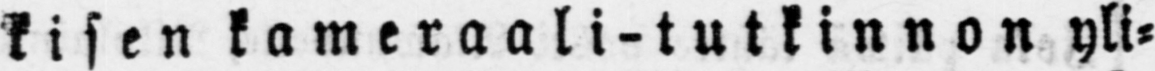kisen kameraali-tutkinnon yli-
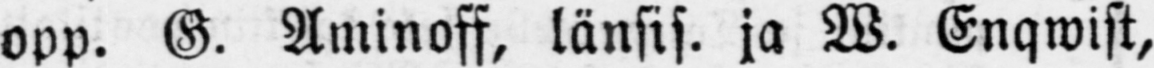opp. G. Aminoff, länsis. ja W. Enqwist,
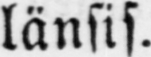länsis.
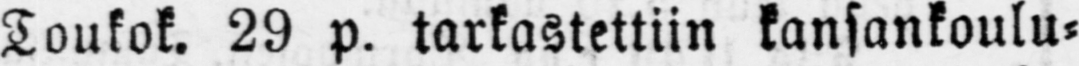Toukok. 29 p. tarkastettiin kansankoulu-
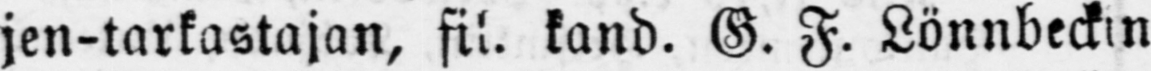jen-tarkastajan, fil. kand. G. F. Lönnbeckin
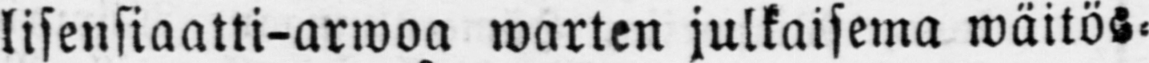lisensiaatti-arwoa warten julkaisema wäitös-
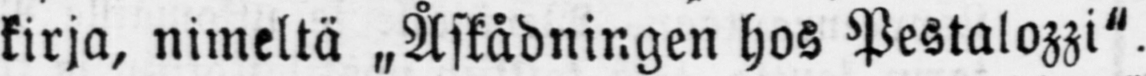kirja, nimeltä „Åskådningen hos Pestalozzi".
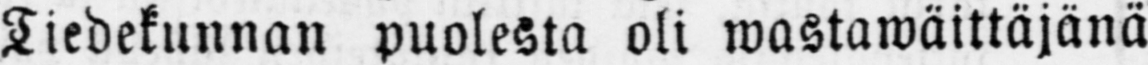Tiedekunnan puolesta oli wastawäittäjänä
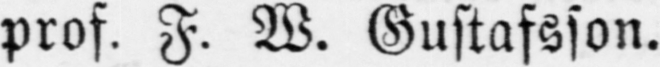prof. F. W. Gustafsson.
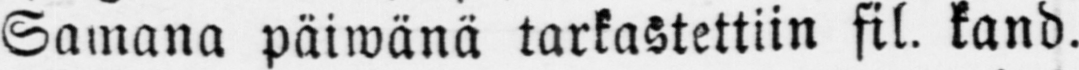Samana päiwänä tarkastettiin fil. kand.
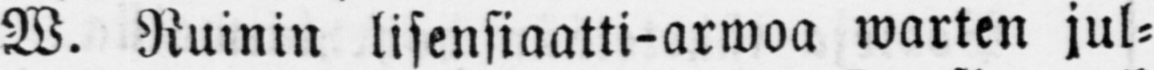W. Ruinin lisensiaatti-arwoa warten jul-
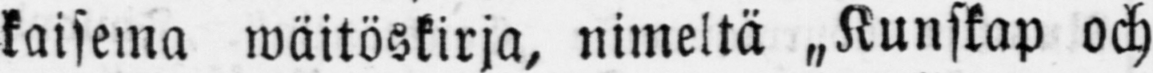kaisema wäitöskirja, nimeltä „Kunskap och
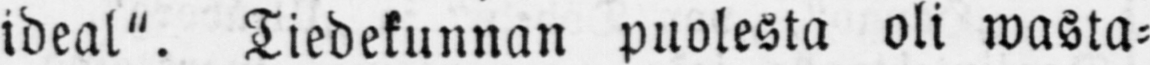ideal". Tiedekunnan puolesta oli wasta-
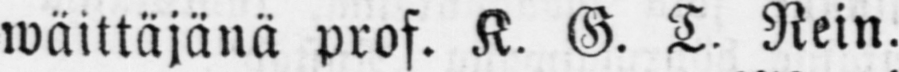wäittäjänä prof. K. G. T. Rein.
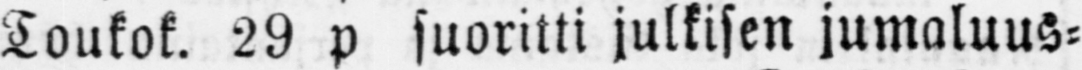Loukok. 29 p suoritti julkisen jumaluus-
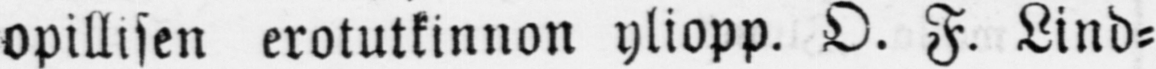opillisen erotutkinnon yliopp. O. F. Lind-
